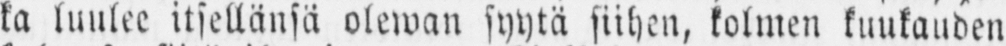ka luulee itsellänsä oleman syytä siihen, kolmen kuukauden
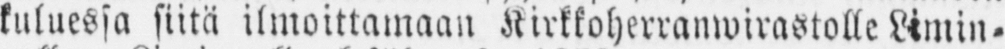kuluessa siitä ilmoittamaan Kirkkoherranwirastolle Limin-
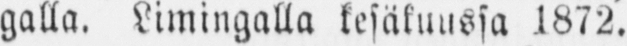galla. Limingalla kesäkuussa 1872.
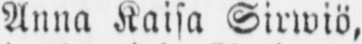Anna Kaisa Sirwiö,
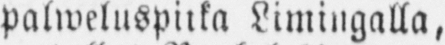palweluspiika Limingalla,
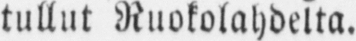tullut Ruokolahdelta.
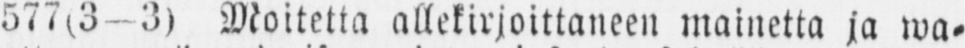577(3-3) Moitetta allekirjoittaneen mainetta ja wa-
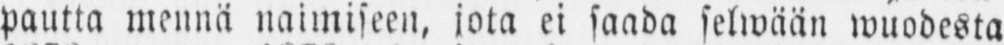pautta mennä naimiseen, jota ei saada selwään wuodesta
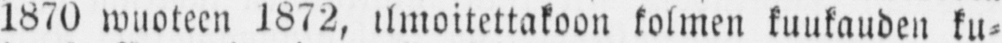1870 wuoteen 1872, ilmoitettakoon kolmen kuukauden ku-
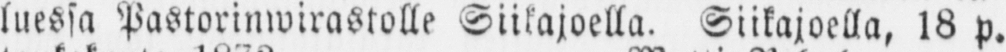luessa Pastorinwirastolle Siikajoella. Siikajoella, 18 p.
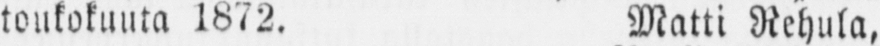toukokuuta 1872. Matti Rehula,
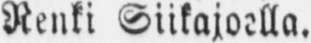Renki Siikajoella.
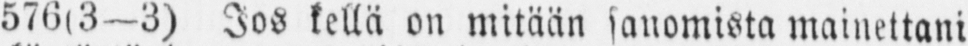576(3—3) Jos kellä on mitään sanomista mainettani
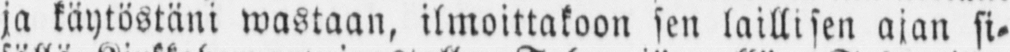ja käytöstäni wastaan, ilmoittakoon sen laillisen ajan si-
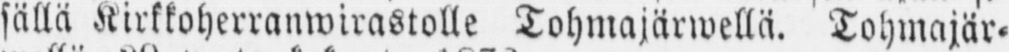sällä Kirkkoherranwirastolle Tohmajärwellä. Tohmajär-
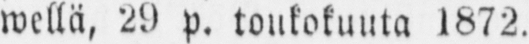wellä, 29 p. toukokuuta 1872.
